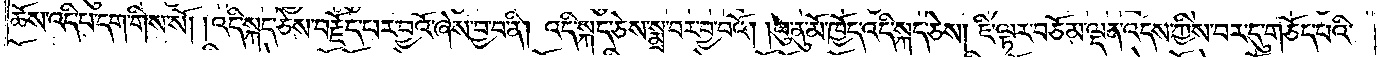ཆོས་འདི་པ་དག་གིས་སོ། །འདི་སྐད་ཅེས་བརྗོད་པར་བྱའོ་ཞེས་བྱ་བ་ནི། འདི་སྐད་ཅེས་སྨྲ་བར་བྱ་བའོ། །ཕུ་ནུ་མོ་ཁྱོད་འདི་སྐད་ཅེས། ཇི་ལྟར་བཅོམ་ལྡན་འདས་ཀྱིས་བར་དུ་གཅོད་པའི་
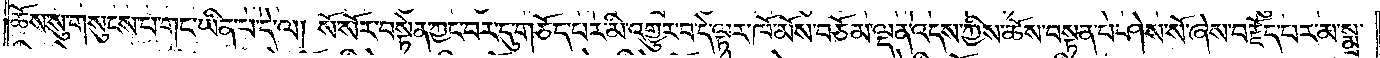ཆོས་སུ་གསུངས་པ་གང་ཡིན་པ་དེ་ལ། སོ་སོར་བསྟེན་ཀྱང་བར་དུ་གཅོད་པར་མི་འགྱུར་བ་དེ་ལྟར་ཁོ་མོས་བཅོམ་ལྡན་འདས་ཀྱིས་ཆོས་བསྟན་པ་ཤེས་སོ་ཞེས་བརྗོད་པར་མ་སྨྲ་
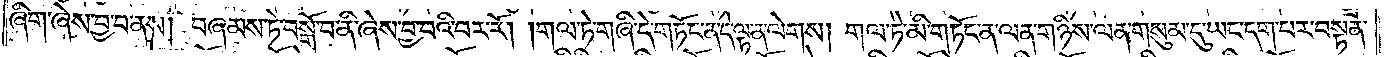ཞིག་ཞེས་བྱ་བ་ནས། བཞམས་ཏེ་བསྒོ་བ་ནི་ཞེས་བྱ་བའི་བར་རོ། །གལ་ཏེ་གཞི་དེ་གཏོང་ན་དེ་ལྟ་ན་ལེགས། གལ་ཏེ་མི་གཏོང་ན་ལན་གཉིས་ལན་གསུམ་དུ་ཡང་དག་པར་བསྟན་
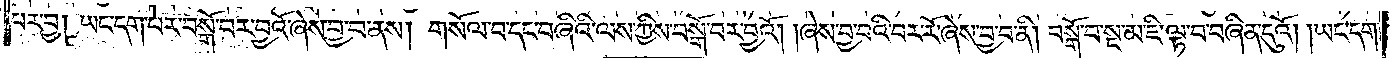པར་བྱ། ཡང་དག་པར་བསྒོ་བར་བྱའོ་ཞེས་བྱ་བ་ནས། གསོལ་པ་དང་བཞིའི་ལས་ཀྱིས་བསྒོ་བར་བྱའོ། །ཞེས་བྱ་བའི་བར་རོ་ཞེས་བྱ་བ་ནི། བསྒོ་བ་སྔ་མ་ཇི་ལྟ་བ་བཞིན་དུའོ། །ཡང་དག་
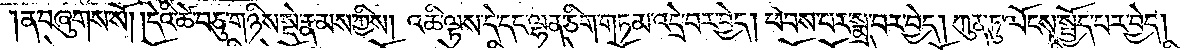ན་བཞུགས་སོ། །དེའི་ཚེ་བཅུ་གཉིས་སྡེ་རྣམས་ཀྱིས། འཆི་ལྟས་དེ་དང་ལྷན་ཅིག་གཏམ་འདྲེ་བར་བྱེད། ཕེབས་པར་སྨྲ་བར་བྱེད། ཀུན་ཏུ་ལོངས་སྤྱོད་པར་བྱེད༎
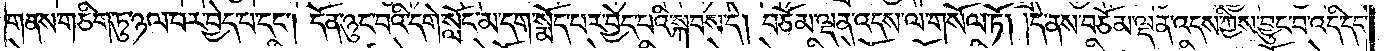གནས་གཅིག་ཏུ་ཉལ་བར་བྱེད་པ་དང༌། དོན་ཉུང་བའི་དགེ་སློང་མ་དག་སྨོད་པར་བྱེད་པའི་སྐབས་དེ། བཅོམ་ལྡན་འདས་ལ་གསོལ་ཏོ། །དེ་ནས་བཅོམ་ལྡན་འདས་ཀྱིས་བྱུང་བ་འདི་དང་
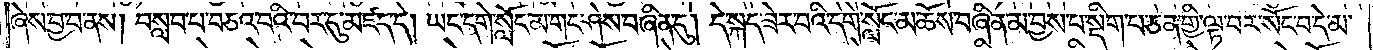ཞེས་བྱ་བ་ནས། བསླབ་པ་བཅའ་བའི་བར་དུ་མཛད་དེ། ཡང་དགེ་སློང་མ་གང་ཤེས་བཞིན་དུ། དེ་སྐད་ཟེར་བའི་དགེ་སློང་མ་ཆོས་བཞིན་མ་བྱས་པ་སྡིག་པ་ཅན་གྱི་ལྟ་བར་སོང་བ་དེ་མ་
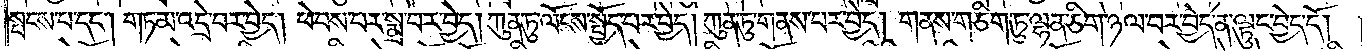སྤངས་པ་དང༌། གཏམ་འདྲེ་བར་བྱེད། ཕེབས་པར་སྨྲ་བར་བྱེད། ཀུན་ཏུ་ལོངས་སྤྱོད་པར་བྱེད། ཀུན་ཏུ་གནས་པར་བྱེད། གནས་གཅིག་ཏུ་ལྷན་ཅིག་ཉལ་བར་བྱེད་ན་ལྟུང་བྱེད་དོ། །
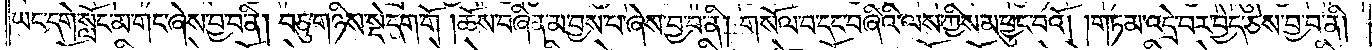ཡང་དགེ་སློང་མ་གང་ཞེས་བྱ་བ་ནི། བཅུ་གཉིས་སྡེ་དག་གོ །ཆོས་བཞིན་མ་བྱས་པ་ཞེས་བྱ་བ་ནི། གསོལ་བ་དང་བཞིའི་ལས་ཀྱིས་མ་ཕྱུང་བའོ། །གཏམ་འདྲེ་བར་བྱེད་ཅེས་བྱ་བ་ནི།
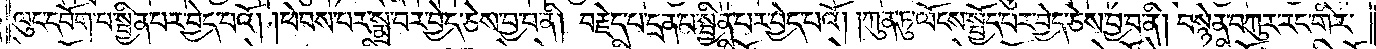ལུང་དཔོག་པ་སྦྱིན་པར་བྱེད་པའོ། །ཕེབས་པར་སྨྲ་བར་བྱེད་ཅེས་བྱ་བ་ནི། བརྗེད་པ་དྲན་པ་སྦྱིན་པར་བྱེད་པའོ། །ཀུན་ཏུ་ལོངས་སྤྱོད་པར་བྱེད་ཅེས་བྱ་བ་ནི། བསྙེན་བཀུར་རང་གིར་
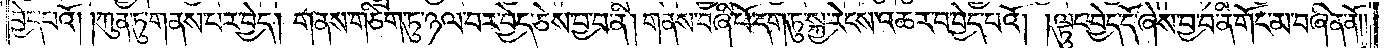བྱེད་པའོ། །ཀུན་ཏུ་གནས་པར་བྱེད། གནས་གཅིག་ཏུ་ཉལ་བར་བྱེད་ཅེས་བྱ་བ་ནི། གནས་བཞི་པོ་དག་ཏུ་སྐྱ་རེངས་འཆར་བ་བྱེད་པའོ། །ལྟུང་བྱེད་དོ་ཞེས་བྱ་བ་ནི་གོང་མ་བཞིན་ནོ༎
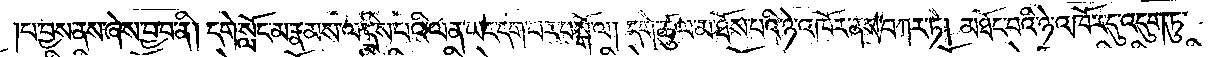པ་བྱས་ནས་ཞེས་བྱ་བ་ནི། དགེ་སློང་མ་རྣམས་ལ་དྲིས་པའི་ལན་ཡང་དག་པར་བསྒོ་ལ། དགེ་ཚུལ་མ་ཐོས་པའི་ཉེ་འཁོར་ནས་བཀར་ཏེ། མཐོང་བའི་ཉེ་འཁོར་དུ་འདུག་ཏུ་
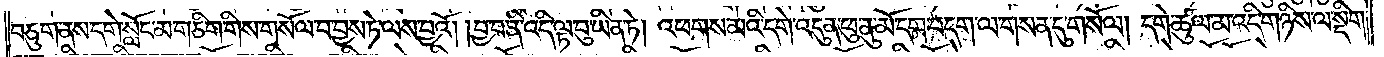བཅུ་གནས་དགེ་སློང་མ་གཅིག་གིས་གསོལ་བ་བྱས་ཏེ་ལས་བྱའོ། །བྱ་བ་ནི་འདི་ལྟ་བུ་ཡིན་ཏེ། འཕགས་མའི་དགེ་འདུན་ཕུ་ནུ་མོ་དག་བདག་ལ་གསན་དུ་གསོལ། དགེ་ཚུལ་མ་འདི་གཉིས་ལ་སྡིག་
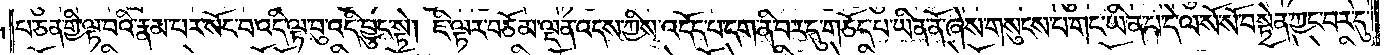པ་ཅན་གྱི་ལྟ་བའི་རྣམ་པར་སོང་བ་འདི་ལྟ་བུ་འདི་བྱུང་སྟེ། ཇི་ལྟར་བཅོམ་ལྡན་འདས་ཀྱིས་འདོད་པ་དག་ནི་བར་དུ་གཅོད་པ་ཡིན་ནོ་ཞེས་གསུངས་པ་གང་ཡིན་པ་དེ་ལ་སོ་སོ་བསྟེན་ཀྱང་བར་དུ་
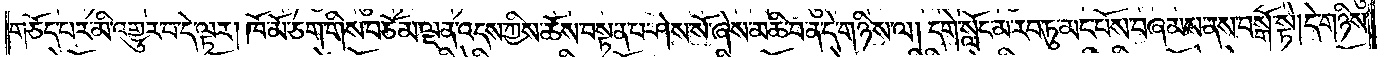གཅོད་པར་མི་འགྱུར་བ་དེ་ལྟར། ཁོ་མོ་ཅག་གིས་བཅོམ་ལྡན་འདས་ཀྱིས་ཆོས་བསྟན་པ་ཤེས་སོ་ཞེས་མཆི་བ་ན་དེ་གཉིས་ལ། དགེ་སློང་མ་རབ་ཏུ་མང་པོས་བཞམས་ནས་བསྒོ་སྟེ། དེ་གཉིས་
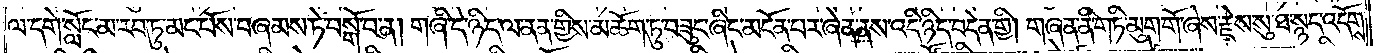ལ་དགེ་སློང་མ་རབ་ཏུ་མང་པོས་བཞམས་ཏེ་བསྒོ་བ་ན། གཞི་དེ་ཉིད་ལ་ནན་གྱིས་མཆོག་ཏུ་བཟུང་ཞིང་མངོན་པར་ཞེན་ནས་འདི་ཉིད་བདེན་གྱི། གཞན་ནི་གཏི་མུག་གོ་ཞེས་རྗེས་སུ་ཐ་སྙད་འདོགས་
